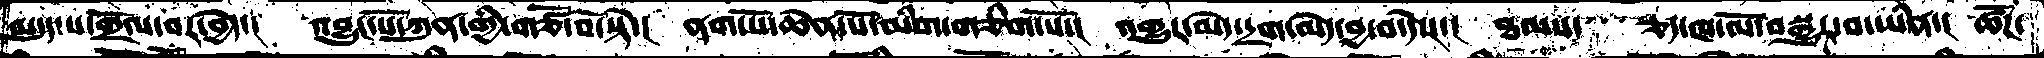མདུད་པ་གྲོལ་བར་བྱེད་།  འབྱུང་པོ་ཀུན་གྱི་གཙོ་བོ་སྟེ་།  ནག་པོ་ཆེན་པོ་མིག་གཅིག་པོ་།  འགྱུར་མེད་དྲག་མེད་བྱ་བ་དེས་།  ཐམས་ཅད་ཁ་ལོ་བསྒྱུར་བ་ཡིན་།  ཚོཌ་
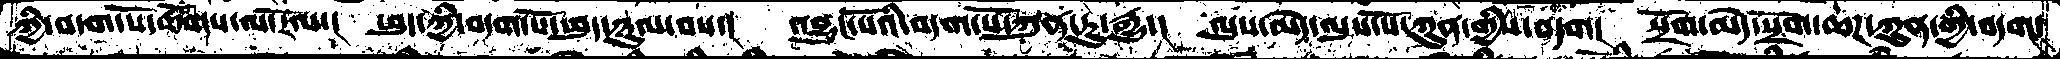ཀྱི་བདག་པོ་ཚོགས་ལ་རོལ་།  ཕུད་ཀྱི་བདག་པོ་ཕུད་ཉུལ་བས་།  འབྱུང་པོའི་བདག་པོ་ཀུན་ཏུ་རྒྱུ་།  ལུས་མེད་ལུས་པོ་ཀུན་གྱིས་བདག།  སྲོག་མེད་སྲོག་ཆཌ་ཀུན་གྱི་བདག།
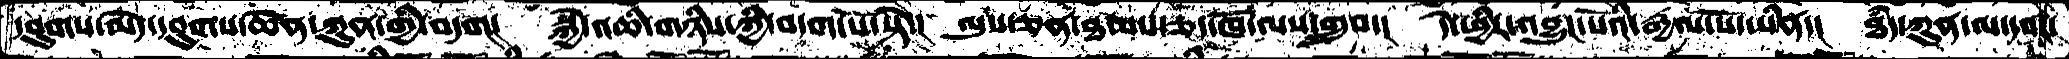དབུགས་མེད་དབུགས་ཆེན་ཀུན་གྱི་བདག།   སྐྱེ་འཆི་གཉིས་ཀྱི་བདག་པོ་སྟེ་།  ལུས་ཅན་ཐམས་ཅད་ཁོ་ལས་གྲུབ་།  དེ་ཕྱིར་འབྱུང་པོའི་རྒྱལ་པོ་ཡིན་།  ཐཾད་ཀུན་ལ་དབང
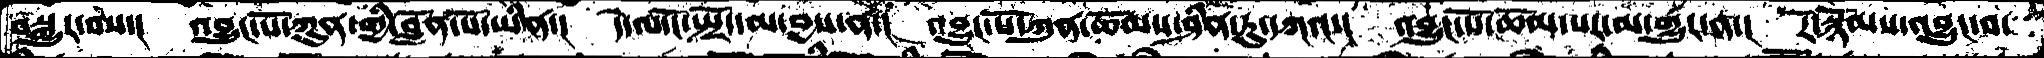བསྒྱུར་བས་།  འབྱུང་པོ་ཀུན་གྱི་བློན་པོ་ཡིན་།  དེ་ལ་ངོ་སྤྲོད་མ་བྱས་ན་།  འབྱུང་པོ་ཀུན་ཆོམས་ཤིན་ཏུ་དཀའ་།  འབྱུང་པོ་ཆོམ་པར་མ་གྱུར་ན་།  རོ་སྙོམས་འབྱུང་བ་
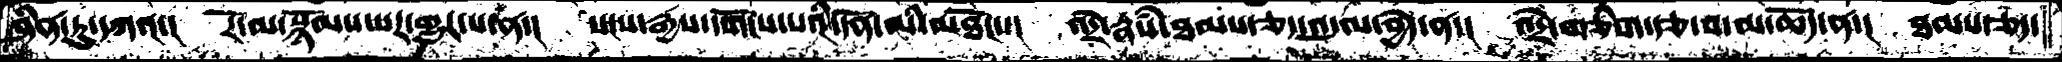ཤིན་ཏུ་དཀའ་།  རོ་མ་སྙོམས་པར་གྱུར་པ་ན་།  སངས་རྒྱས་དགོངས་པའི་དོན་མི་མཐོང་་།  འདྲེ་རྣཾས་ཐམས་ཅད་འདུལ་བྱེད་ན་།  འདྲེ་གཅིག་རྩ་བ་མ་ཆོད་ན་།  ཐམས་ཅད་
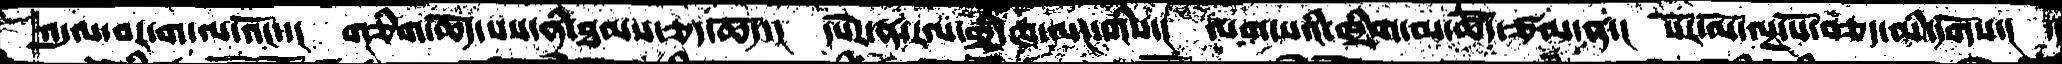འདུལ་བར་ག་ལ་འོང་་།  གཅིག་ཆོད་པས་ནི་ཐམས་ཅད་ཆོད་།  དཔེར་ན་རལ་གྲི་ཁ་ལང་གིས་།  ལག་པའི་ཁྲིག་མ་ཚོད་ཙམ་ན་།  སོར་མོ་ལྔ་པོ་བཅད་མི་དགོས་།
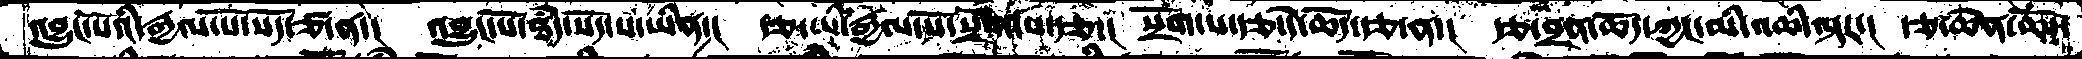འབྱུང་པོའི་རྒྱལ་པོ་སོད་ཙ་ན་།  འབྱུང་པོ་ཐཾད་སོད་པ་ཡིན་།  རྩ་ཡི་རྒྱལ་པོ་སྲོག་པ་རྩ་།  སྲོག་པ་རྩ་དེ་ཆོད་རྩ་ན་།  རྩ་བྲན་ཆོད་ཀྱང་མི་འཆི་ལྟར་།  རྩ་ཆེན་ཆོ་
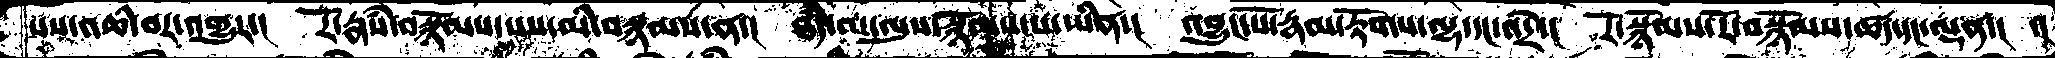པས་འཆི་བར་འགྱུར་།  རོ་རྣཾས་བསྙོམས་པས་མི་བསྙམས་ན་།   ཐཾད་མ་ལུས་སྙོམས་པ་ཡིན་།  འབྱུང་པོ་རྣམ་རྟོགས་ལྷ་དང་འདྲེ་།  རོ་སྙོམས་རོ་བསྙོམས་ཚད་དང་ལྡན་།  ་།
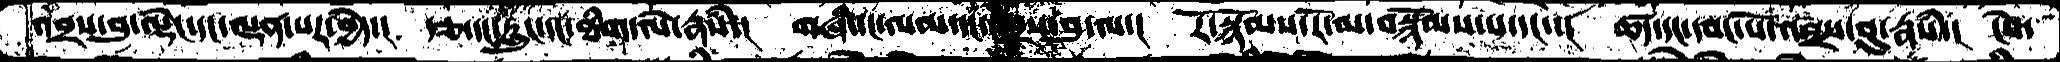འབྲས་བུ་ལྡེང་དང་ལྡན་པར་བྱེད་།  རྩ་དང་རླུང་དང་ཐིག་ལེ་རྣཾས་།  གཞི་དང་ལམ་དང་འབྲས་བུ་ལ་།  རོ་སྙོམས་རོ་མ་སྙོམས་པ་དང་་།   ཚད་དང་དབང་པ་ོའབྲས་བུ་རྣཾས་།  ངེས་
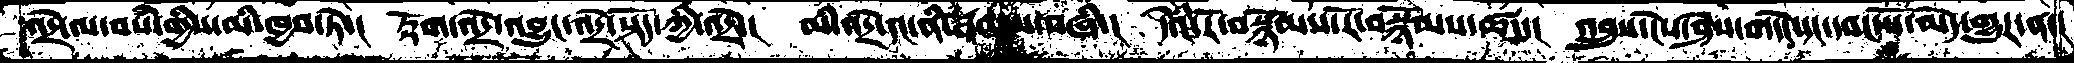འདྲེ་ལ་བསཾ་གྱིས་མི་ཁྱབ་ཏེ་།  རྟོག་འདྲེ་འབྱུང་འདྲེ་སྟོད་ཀྱི་འདྲེ་།  མི་འདྲེ་དང་ནི་རྣམ་པ་བཞི་།  དེའི་རོ་བསྙོམས་རོ་བསྙོམས་ཚད་།  འབྲུས་ངེས་ཤེས་གདེང་དང་དབང་པོ་མེད་གྱུར་ན་།
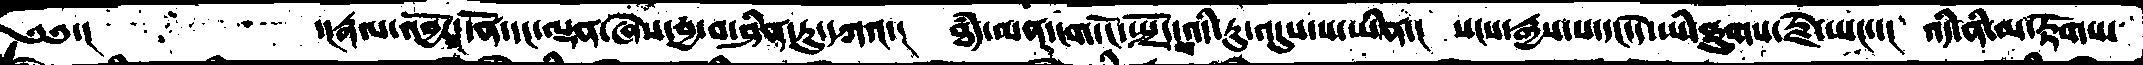༄༅་།        ་།རྣལ་འབྱོར་དོན་དང་ལྡན་ཞེས་བྱ་བ་ཤིན་ཏུ་དཀའ་།  ཐཾད་ལན་ངག་ངོ་སྤྲོད་འདི་རུ་འདུས་པ་ཡིན་།  སངས་རྒྱས་པ་དང་དེ་ཡི་ཐུགས་རྗེ་ཡང་་།  འདི་ནི་མ་རྟོགས་
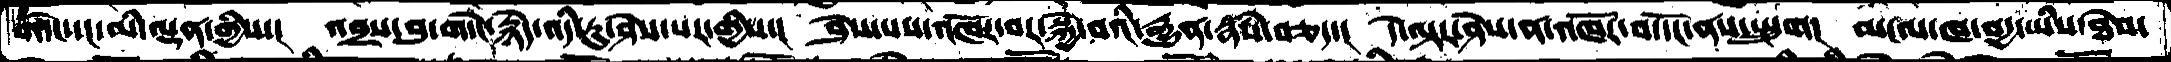གདེང་དང་མི་ལྡན་གྱིས་།  འབྲས་བུ་གདེང་རྙེད་འདི་རུ་ཤེས་པར་གྱིས་།  ཤེས་པས་འཁོར་བར་སྐྱེ་བའི་རྒྱུན་རྣཾས་བཅད་།  དེ་ལྟར་ཤེས་ན་འཁོར་བ་དོང་ནས་སྤྲུག།  མངལ་ཁ་བདྱ་ཡིས་ཐེབ་
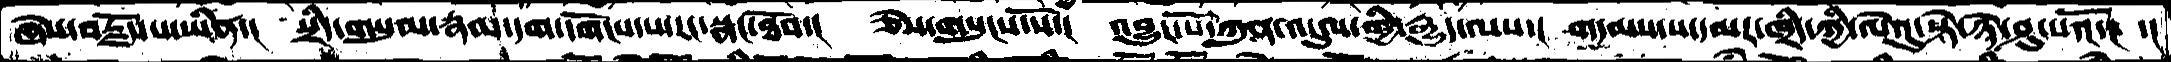ཞེས་བརྗོད་པ་ཡིན་།  སྲིད་གསུམ་རྣམ་དག་དགོངས་པ་རང་སྣང་ཐོབ་།  ཅེས་གསུངས་སོ་།  འབྱུང་པོ་ཀུན་འདུལ་གྱི་རྒྱུད་ལས་།  གདམས་པ་དམར་ཁྲིད་ཀྱི་ལེའུ་སྟེ་ཉེ་ཤུ་པའོ་།  ་།
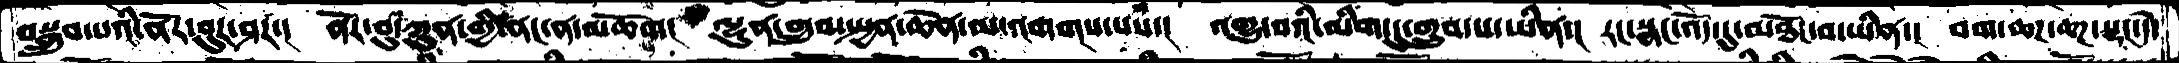བསྒྲུབ་པའི་ནོར་བུར་ཤར་།  ནོར་བུ་ཀུན་གྱི་ནང་ན་མཆོག།  ལྷུན་གྲུབ་སྤྱན་ཆེན་མ་འགགས་པས་།  འགྱུ་བའི་མིག་དུ་གྲུབ་པ་ཡིན་།  རང་སྣང་འོད་དུ་མཐོང་བ་ཡིན་།  བག་ཆཌ་ཆཌ་སྡང་དེ་
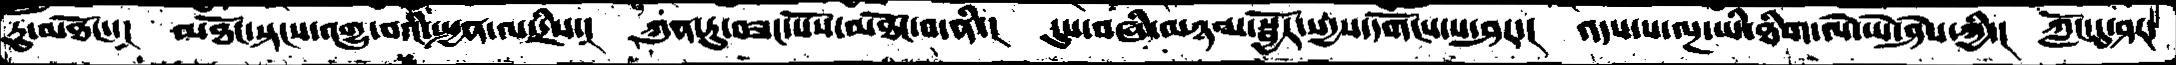ཏུ་མཐོང་་།  མཐོང་སྟངས་འགྱུ་བའི་སྤྱན་ལ་དྲིས་།  ཀུན་ཏུ་བཟང་པོ་མཐོང་བ་ནི་།  དུས་བཞི་མཉམ་སྦྱོར་སདྱས་དགོངས་པ་ཤར་།  འདས་པ་ལྔ་ཡི་ཐིག་ལེ་ཡེ་ཤེས་ཀྱི་།  ཀློང་དུ་ཤར་
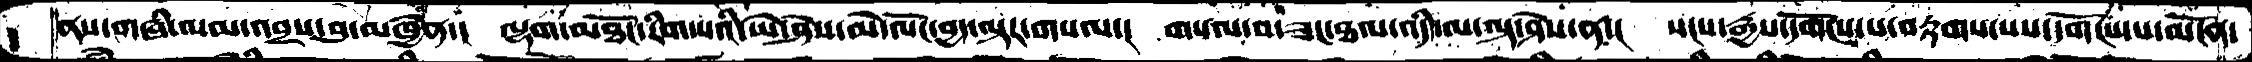ནས་གཞི་ལམ་འབྲས་བུ་མཁྱེན་།  ལྷག་མཐོང་རིག་པའི་ཡེ་ཤེས་མེ་ལོང་བྱད་ལྟར་གསལ་།  གསལ་བ་ཟང་ཐལ་འདི་ལ་ལྟ་ཤེས་ན་།  སངས་རྒྱས་དགོངས་པ་བརྟགས་པས་དགོངས་པ་མངོན་
